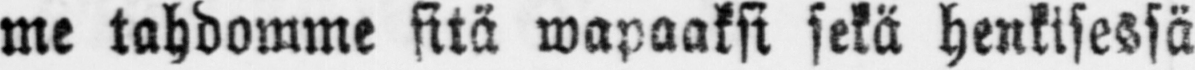me tahdomme sitä wapaaksi sekä henkisessä
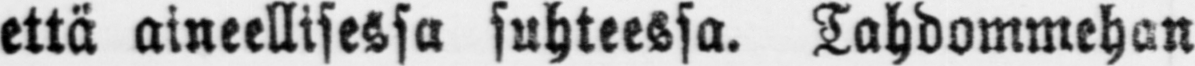että aineellisessa suhteessa. Tahdommehan
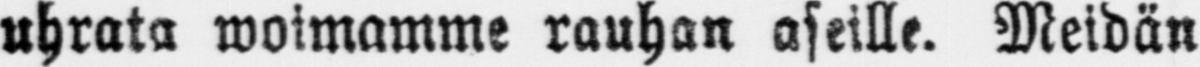uhrata woimamme rauhan aseille. Meidän
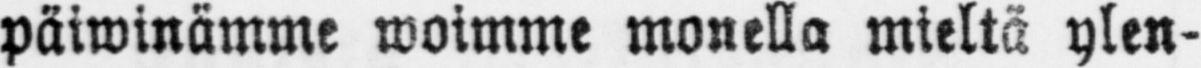päiwinämme woimme monella mieltä ylen-
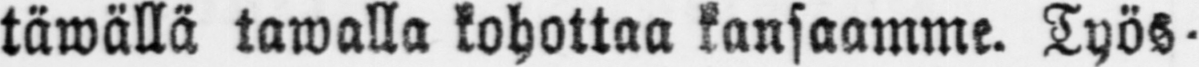täwällä tawalla kohottaa kansaamme. Työs-
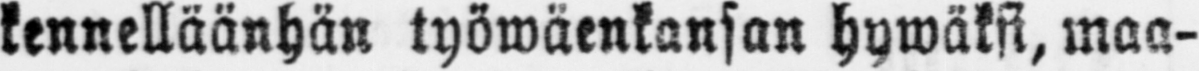kennelläänhän työwäenkansan hywäksi, maa-
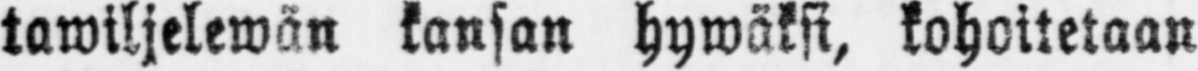tawiljelewän kansan hywäksi, kohoitetaan
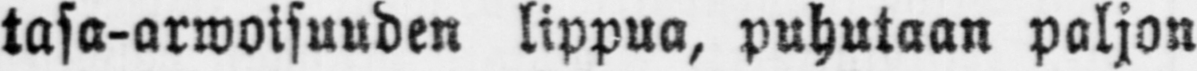tasa-arwoisuuden lippua, puhutaan paljon
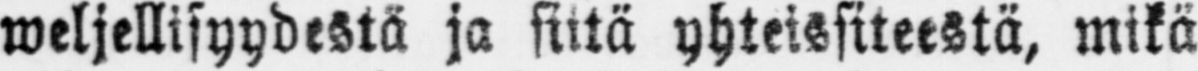weljellisyydestä ja siitä yhteissiteestä, mikä
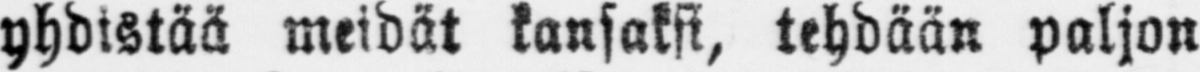yhdistää meidät kansaksi, tehdään paljon
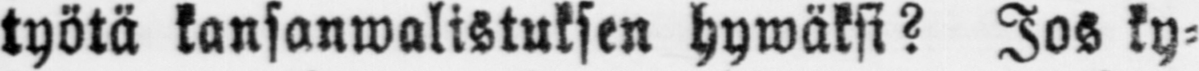työtä kansanwalistuksen hywäksi? Jos ky-
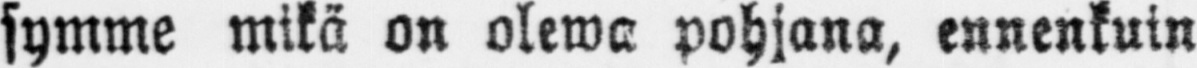symme mikä on olewa pohjana, ennenkuin
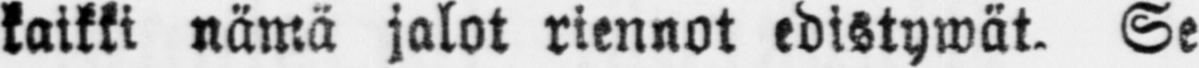kaikki nämä jalot riennot edistywät. Se
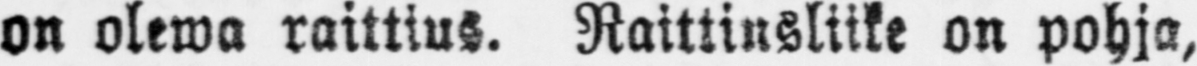on olewa raittius. Raittiusliike on pohja,
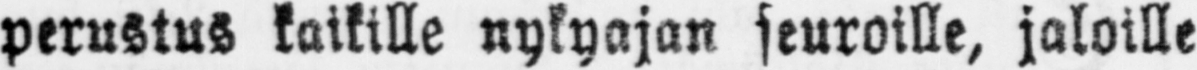perustus kaikille nykyajan seuroille, jaloille
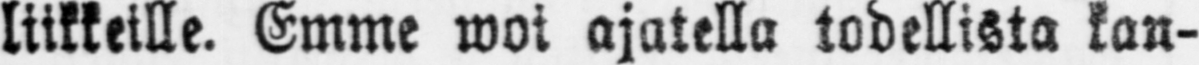liikkeille. Emme woi ajatella todellista kan-
